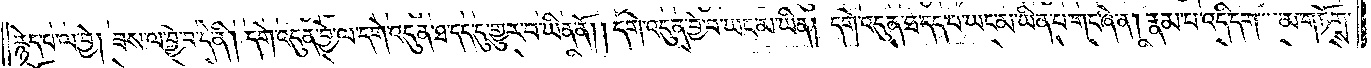རྙེད་པ་ལ་བྱེ། ཟས་ལ་བྱེ་བ་དེ་ནི། དགེ་འདུན་བྱེ་ལ་དགེ་འདུན་ཐ་དད་དུ་གྱུར་པ་ཡིན་ནོ། །དགེ་འདུན་བྱེ་བ་ཡང་མ་ཡིན། དགེ་འདུན་ཐ་དད་པ་ཡང་མ་ཡིན་པ་གང་ཞེ་ན། རྣམ་པ་འདི་དག་མ་གཏོགས་
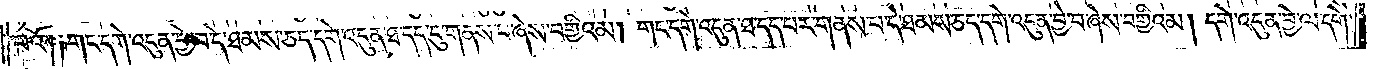པའོ། །གང་དགེ་འདུན་བྱེ་བ་དེ་ཐམས་ཅད་དགེ་འདུན་ཐ་དད་དུ་གནས་པ་ཞེས་བགྱིའམ། གང་དགེ་འདུན་ཐ་དད་པར་གནས་པ་དེ་ཐམས་ཅད་དགེ་འདུན་བྱེ་བ་ཞེས་བགྱིའམ། དགེ་འདུན་བྱེ་ལ་དགེ་
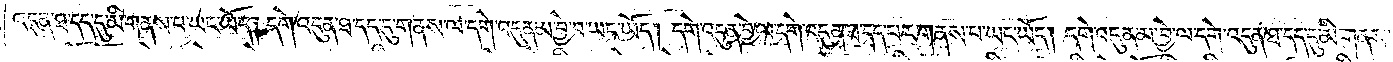འདུན་ཐ་དད་དུ་མི་གནས་པ་ཡང་ཡོད། དགེ་འདུན་ཐ་དད་དུ་གནས་ལ་དགེ་འདུན་མ་བྱེ་བ་ཡང་ཡོད། དགེ་འདུན་བྱེ་ལ་དགེ་འདུན་ཐ་དད་པར་གནས་པ་ཡང་ཡོད། དགེ་འདུན་མ་བྱེ་ལ་དགེ་འདུན་ཐ་དད་དུ་མི་གནས་
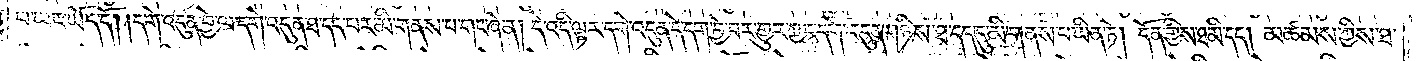པ་ཡང་ཡོད་དོ། །དགེ་འདུན་བྱེ་ལ་དགེ་འདུན་ཐ་དད་པར་མི་གནས་པ་གང་ཞེ་ན། དེ་འདི་ལྟར་དགེ་འདུན་དེ་དག་བྱེ་བར་གྱུར་ཀྱང་དགེ་འདུན་གཉིས་ཐ་དད་དུ་མི་གནས་པ་ཡིན་ཏེ། དོན་གྱིས་ཐ་མི་དད། མཚམས་ཀྱིས་ཐ་
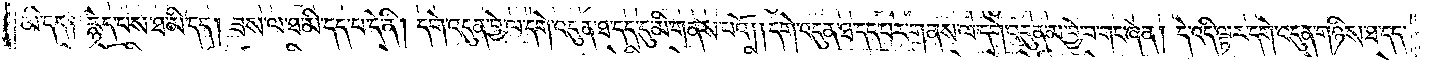མི་དད། རྙེད་པས་ཐ་མི་དད། ཟས་ལ་ཐ་མི་དད་པ་དེ་ནི། དགེ་འདུན་བྱེ་ལ་དགེ་འདུན་ཐ་དད་དུ་མི་གནས་པའོ། །དགེ་དུན་ཐ་དད་པར་གནས་ལ་དགེ་དུན་མ་བྱེ་བ་གང་ཞེ་ན། དེ་འདི་ལྟར་དགེ་འདུན་གཉིས་ཐ་དད་
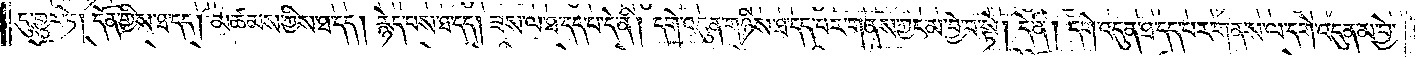དུ་གྱུར་ཏེ། དོན་གྱིས་ཐ་དད། མཚམས་ཀྱིས་ཐ་དད། རྙེད་པས་ཐ་དད། ཟས་ལ་ཐ་དད་པ་དེ་ནི། དགེ་འདུན་གཉིས་ཐ་དད་པར་གནས་ཀྱང་མ་བྱེ་བ་སྟེ། དེ་ནི། དགེ་འདུན་ཐ་དད་པར་གནས་ལ་དགེ་འདུན་མ་བྱེ་
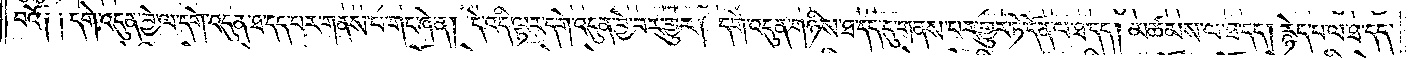བའོ། །དགེ་འདུན་བྱེ་ལ་དགེ་འདུན་ཐ་དད་པར་གནས་པ་གང་ཞེ་ན། དེ་འདི་ལྟར་དགེ་འདུན་བྱེ་བར་གྱུར། དགེ་འདུན་གཉིས་ཐ་དད་དུ་གནས་པར་གྱུར་ཏེ་དོན་ལ་ཐ་དད། མཚམས་ལ་ཐ་དད། རྙེད་པ་ལ་ཐ་དད་
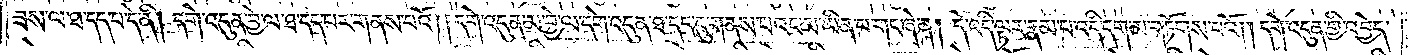ཟས་ལ་ཐ་དད་པ་དེ་ནི། དགེ་འདུན་བྱེ་ལ་ཐ་དད་པར་གནས་པའོ། །དགེ་འདུན་མ་བྱེ་ལ་དགེ་འདུན་ཐ་དད་དུ་གནས་པའང་མ་ཡིན་པ་གང་ཞེ་ན། དེ་འདི་ལྟར་རྣམ་པ་འདི་དག་མ་གཏོགས་པའོ། །དགེ་འདུན་གྱི་འབྱེད་
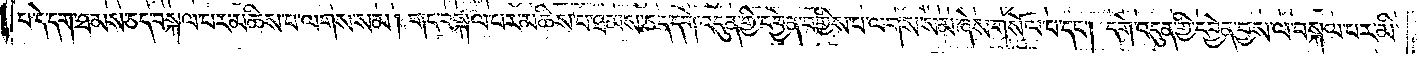པ་དེ་དག་ཐམས་ཅད་བསྐལ་པར་མཆིས་པ་ལགས་སམ། གང་བསྐལ་པར་མཆིས་པ་ཐམས་ཅད་དགེ་འདུན་གྱི་དབྱེན་བགྱིས་པ་ལགས་སམ་ཞེས་གསོལ་པ་དང༌། དགེ་འདུན་གྱི་དབྱེན་བྱས་ལ་བསྐལ་པར་མི་
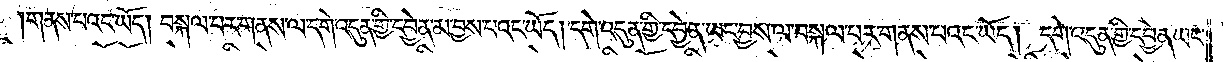གནས་པའང་ཡོད། བསྐལ་པར་གནས་ལ་དགེ་འདུན་གྱི་དབྱེན་མ་བྱས་པའང་ཡོད། དགེ་འདུན་གྱི་དབྱེན་ཡང་བྱས་ལ་བསྐལ་པར་གནས་པའང་ཡོད། དགེ་འདུན་གྱི་དབྱེན་ཡང་
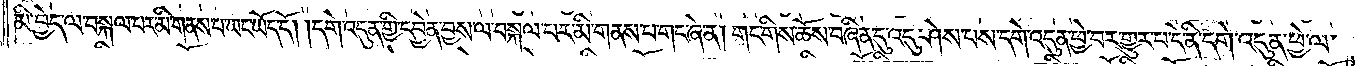མི་བྱེད་ལ་བསྐལ་པར་མི་གནས་པ་ཡང་ཡོད་དོ། །དགེ་འདུན་གྱི་དབྱེན་བྱས་ལ་བསྐལ་པར་མི་གནས་པ་གང་ཞེ་ན། གང་གིས་ཆོས་བཞིན་དུ་འདུ་ཤེས་པས་དགེ་འདུན་ཕྱེ་བར་གྱུར་པ་དེ་ནི་དགེ་འདུན་ཕྱེ་ལ་
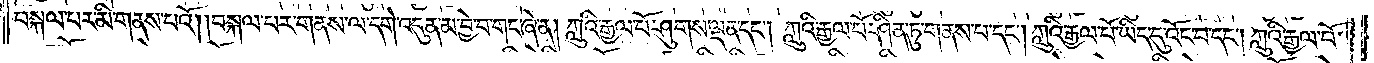བསྐལ་པར་མི་གནས་པའོ། །བསྐལ་པར་གནས་ལ་དགེ་འདུན་མ་བྱེ་བ་གང་ཞེ་ན། ཀླུའི་རྒྱལ་པོ་ཤུགས་ལྡན་དང༌། ཀླུའི་རྒྱལ་པོ་ཤིན་ཏུ་གནས་པ་དང༌། ཀླུའི་རྒྱལ་པོ་ཡིད་དུ་འོང་བ་དང༌། ཀླུའི་རྒྱལ་པོ་
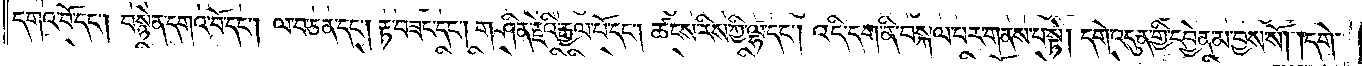དགའ་བོ་དང༌། བསྙེན་དགའ་བོ་དང༌། ལ་བ་ཅན་དང༌། རྟ་བཟང་དང༌། གཤིན་རྗེའི་རྒྱལ་པོ་དང༌། ཚངས་རིས་ཀྱི་ལྷ་དང༌། འདི་དག་ནི་བསྐལ་པར་གནས་པ་སྟེ། དགེ་འདུན་གྱི་དབྱེན་མ་བྱས་སོ། །དགེ་
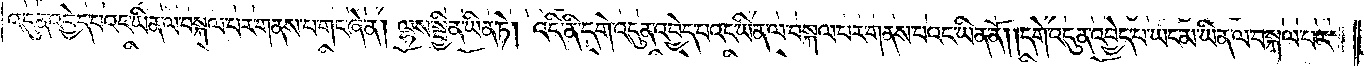འདུན་འབྱེད་པའང་ཡིན་ལ་བསྐལ་པར་གནས་པ་གང་ཞེ་ན། ལྷས་སྦྱིན་ཡིན་ཏེ། འདི་ནི་དགེ་འདུན་འབྱེད་པའང་ཡིན་ལ་བསྐལ་པར་གནས་པའང་ཡིན་ནོ། །དགེ་འདུན་འབྱེད་པ་ཡང་མ་ཡིན་ལ་བསྐལ་པར་
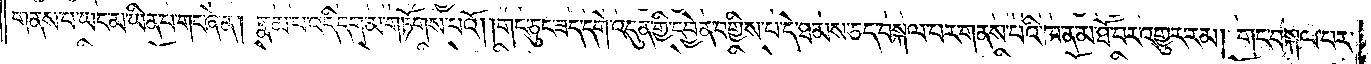གནས་པ་ཡང་མ་ཡིན་པ་གང་ཞེ་ན། རྣམ་པ་འདི་དག་མ་གཏོགས་པའོ། །གང་ཅུང་ཟད་དགེ་འདུན་གྱི་དབྱེན་བགྱིས་པ་དེ་ཐམས་ཅད་བསྐལ་པར་གནས་པའི་ཁ་ན་མ་ཐོ་བར་འགྱུར་རམ། གང་བསྐལ་པར་
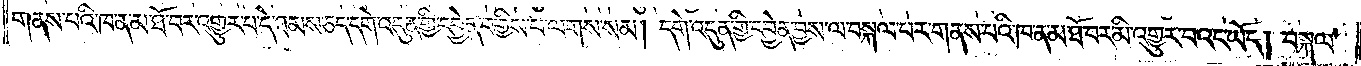གནས་པའི་ཁ་ན་མ་ཐོ་བར་གྱུར་བ་དེ་ཐམས་ཅད་དགེ་འདུན་གྱི་དབྱེན་བགྱིས་པ་ལགས་སམ། དགེ་འདུན་གྱི་དབྱེན་བྱས་ལ་བསྐལ་པར་གནས་པའི་ཁ་ན་མ་ཐོ་བར་མི་འགྱུར་བའང་ཡོད། བསྐལ་
